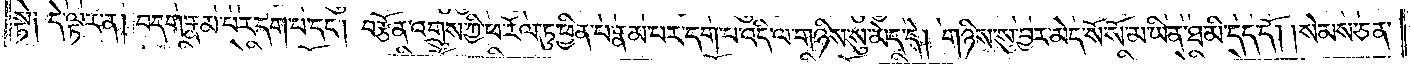སྟེ། དེ་ལྟར་ན་བདག་རྣམ་པར་དག་པ་དང༌། བརྩོན་འགྲུས་ཀྱི་ཕ་རོལ་ཏུ་ཕྱིན་པ་རྣམ་པར་དག་པ་འདི་ལ་གཉིས་སུ་མེད་དེ། གཉིས་སུ་བྱར་མེད་སོ་སོ་མ་ཡིན་ཐ་མི་དད་དོ། །སེམས་ཅན་
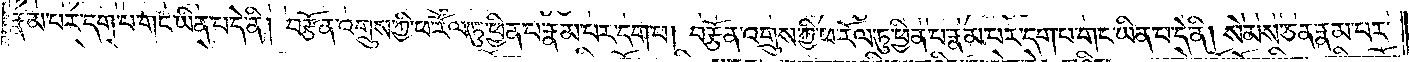རྣམ་པར་དག་པ་གང་ཡིན་པ་དེ་ནི། བརྩོན་འགྲུས་ཀྱི་ཕ་རོལ་ཏུ་ཕྱིན་པ་རྣམ་པར་དག་པ། བརྩོན་འགྲུས་ཀྱི་ཕ་རོལ་ཏུ་ཕྱིན་པ་རྣམ་པར་དག་པ་གང་ཡིན་པ་དེ་ནི། སེམས་ཅན་རྣམ་པར་
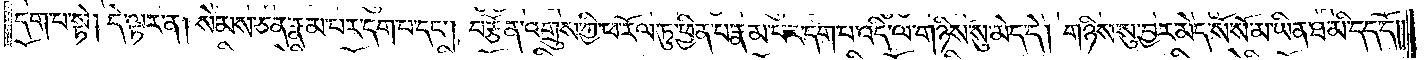དག་པ་སྟེ། དེ་ལྟར་ན། སེམས་ཅན་རྣམ་པར་དག་པ་དང༌། བརྩོན་འགྲུས་ཀྱི་ཕ་རོལ་ཏུ་ཕྱིན་པ་རྣམ་པར་དག་པ་འདི་ལ་གཉིས་སུ་མེད་དེ། གཉིས་སུ་བྱར་མེད་སོ་སོ་མ་ཡིན་ཐ་མི་དད་དོ། །
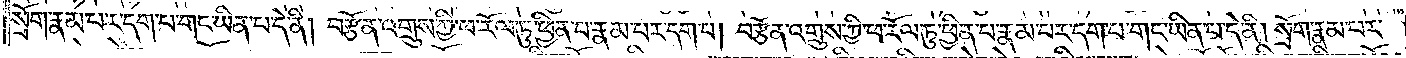སྲོག་རྣམ་པར་དག་པ་གང་ཡིན་པ་དེ་ནི། བརྩོན་འགྲུས་ཀྱི་ཕ་རོལ་ཏུ་ཕྱིན་པ་རྣམ་པར་དག་པ། བརྩོན་འགྲུས་ཀྱི་ཕ་རོལ་ཏུ་ཕྱིན་པ་རྣམ་པར་དག་པ་གང་ཡིན་པ་དེ་ནི། སྲོག་རྣམ་པར་
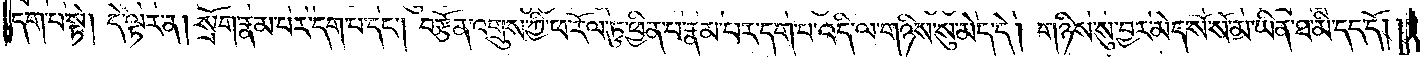དག་པ་སྟེ། དེ་ལྟར་ན། སྲོག་རྣམ་པར་དག་པ་དང༌། བརྩོན་འགྲུས་ཀྱི་ཕ་རོལ་ཏུ་ཕྱིན་པ་རྣམ་པར་དག་པ་འདི་ལ་གཉིས་སུ་མེད་དེ། གཉིས་སུ་བྱར་མེད་སོ་སོ་མ་ཡིན་ཐ་མི་དད་དོ། །
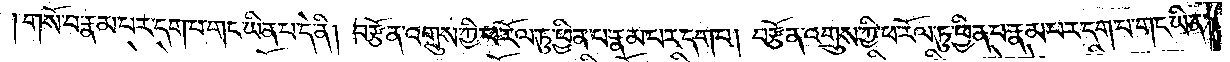གསོ་བ་རྣམ་པར་དག་པ་གང་ཡིན་པ་དེ་ནི། བརྩོན་འགྲུས་ཀྱི་ཕ་རོལ་ཏུ་ཕྱིན་པ་རྣམ་པར་དག་པ། བརྩོན་འགྲུས་ཀྱི་ཕ་རོལ་ཏུ་ཕྱིན་པ་རྣམ་པར་དག་པ་གང་ཡིན་
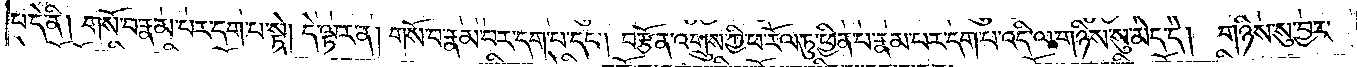པ་དེ་ནི། གསོ་བ་རྣམ་པར་དག་པ་སྟེ། དེ་ལྟར་ན། གསོ་བ་རྣམ་པར་དག་པ་དང༌། བརྩོན་འགྲུས་ཀྱི་ཕ་རོལ་ཏུ་ཕྱིན་པ་རྣམ་པར་དག་པ་འདི་ལ་གཉིས་སུ་མེད་དེ། གཉིས་སུ་བྱར་
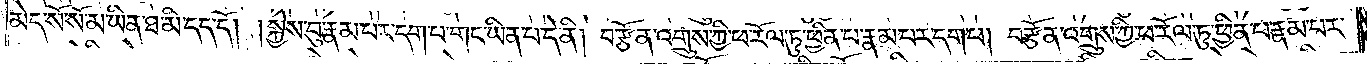མེད་སོ་སོ་མ་ཡིན་ཐ་མི་དད་དོ། །སྐྱེས་བུ་རྣམ་པར་དག་པ་གང་ཡིན་པ་དེ་ནི། བརྩོན་འགྲུས་ཀྱི་ཕ་རོལ་ཏུ་ཕྱིན་པ་རྣམ་པར་དག་པ། བརྩོན་འགྲུས་ཀྱི་ཕ་རོལ་ཏུ་ཕྱིན་པ་རྣམ་པར་
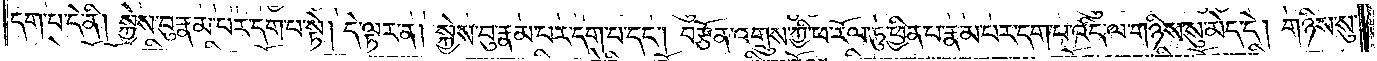དག་པ་དེ་ནི། སྐྱེས་བུ་རྣམ་པར་དག་པ་སྟེ། དེ་ལྟར་ན། སྐྱེས་བུ་རྣམ་པར་དག་པ་དང༌། བརྩོན་འགྲུས་ཀྱི་ཕ་རོལ་ཏུ་ཕྱིན་པ་རྣམ་པར་དག་པ་འདི་ལ་གཉིས་སུ་མེད་དེ། གཉིས་སུ་
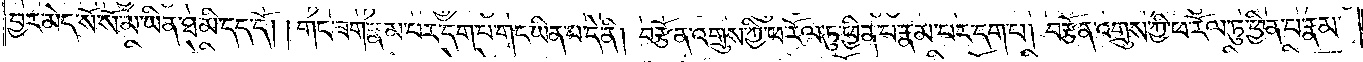བྱར་མེད་སོ་སོ་མ་ཡིན་ཐ་མི་དད་དོ། །གང་ཟག་རྣམ་པར་དག་པ་གང་ཡིན་པ་དེ་ནི། བརྩོན་འགྲུས་ཀྱི་ཕ་རོལ་ཏུ་ཕྱིན་པ་རྣམ་པར་དག་པ། བརྩོན་འགྲུས་ཀྱི་ཕ་རོལ་ཏུ་ཕྱིན་པ་རྣམ་
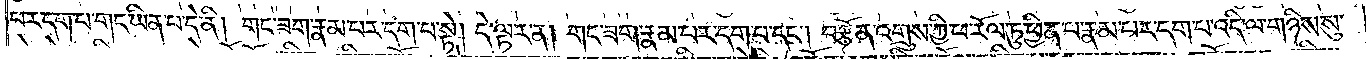པར་དག་པ་གང་ཡིན་པ་དེ་ནི། གང་ཟག་རྣམ་པར་དག་པ་སྟེ། དེ་ལྟར་ན། གང་ཟག་རྣམ་པར་དག་པ་དང༌། བརྩོན་འགྲུས་ཀྱི་ཕ་རོལ་ཏུ་ཕྱིན་པ་རྣམ་པར་དག་པ་འདི་ལ་གཉིས་སུ་
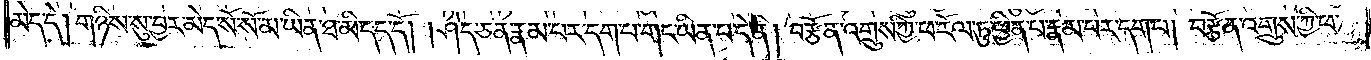མེད་དེ། གཉིས་སུ་བྱར་མེད་སོ་སོ་མ་ཡིན་ཐ་མི་དད་དོ། །ཤེད་ཅན་རྣམ་པར་དག་པ་གང་ཡིན་པ་དེ་ནི། བརྩོན་འགྲུས་ཀྱི་ཕ་རོལ་ཏུ་ཕྱིན་པ་རྣམ་པར་དག་པ། བརྩོན་འགྲུས་ཀྱི་ཕ་
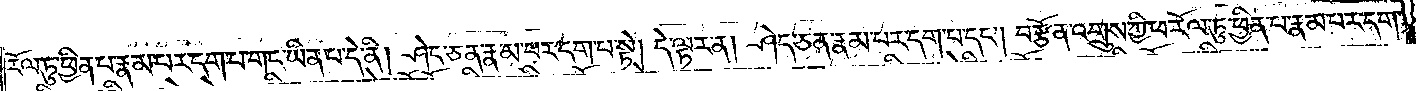རོལ་ཏུ་ཕྱིན་པ་རྣམ་པར་དག་པ་གང་ཡིན་པ་དེ་ནི། ཤེད་ཅན་རྣམ་པར་དག་པ་སྟེ། དེ་ལྟར་ན། ཤེད་ཅན་རྣམ་པར་དག་པ་དང༌། བརྩོན་འགྲུས་ཀྱི་ཕ་རོལ་ཏུ་ཕྱིན་པ་རྣམ་པར་དག་
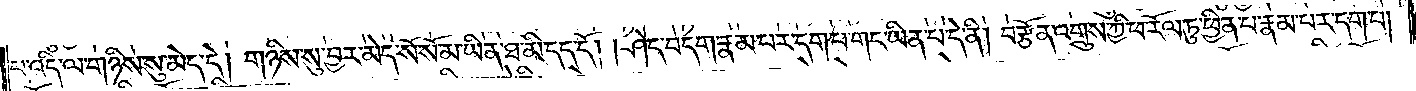པ་འདི་ལ་གཉིས་སུ་མེད་དེ། གཉིས་སུ་བྱར་མེད་སོ་སོ་མ་ཡིན་ཐ་མི་དད་དོ། །ཤེད་བདག་རྣམ་པར་དག་པ་གང་ཡིན་པ་དེ་ནི། བརྩོན་འགྲུས་ཀྱི་ཕ་རོལ་ཏུ་ཕྱིན་པ་རྣམ་པར་དག་པ།
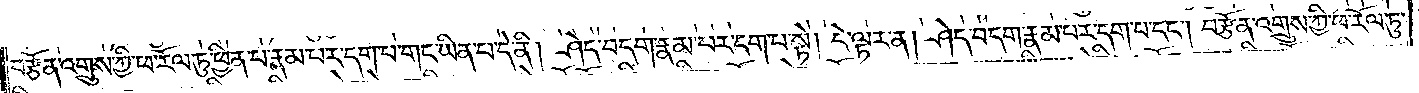བརྩོན་འགྲུས་ཀྱི་ཕ་རོལ་ཏུ་ཕྱིན་པ་རྣམ་པར་དག་པ་གང་ཡིན་པ་དེ་ནི། ཤེད་བདག་རྣམ་པར་དག་པ་སྟེ། དེ་ལྟར་ན། ཤེད་བདག་རྣམ་པར་དག་པ་དང༌། བརྩོན་འགྲུས་ཀྱི་ཕ་རོལ་ཏུ་
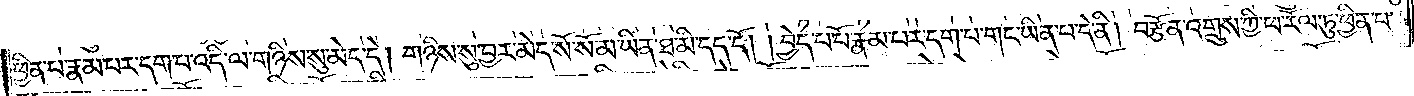ཕྱིན་པ་རྣམ་པར་དག་པ་འདི་ལ་གཉིས་སུ་མེད་དེ། གཉིས་སུ་བྱར་མེད་སོ་སོ་མ་ཡིན་ཐ་མི་དད་དོ། །བྱེད་པ་པོ་རྣམ་པར་དག་པ་གང་ཡིན་པ་དེ་ནི། བརྩོན་འགྲུས་ཀྱི་ཕ་རོལ་ཏུ་ཕྱིན་པ་
